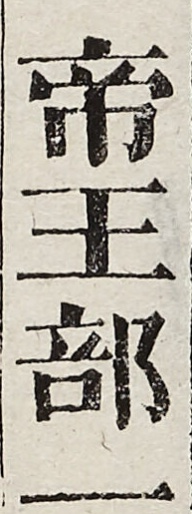帝王部一
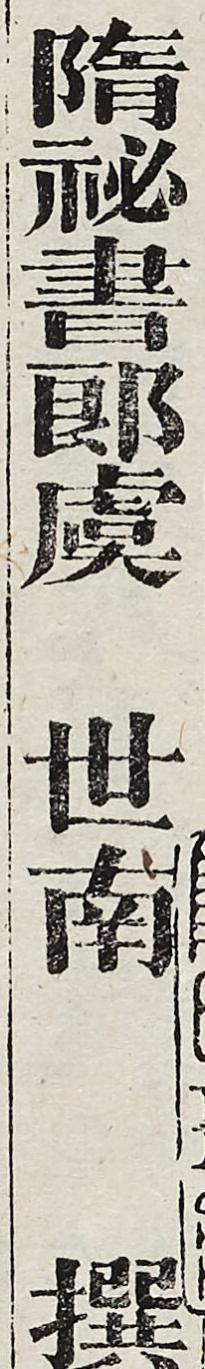隋秘書郎虞世南撰
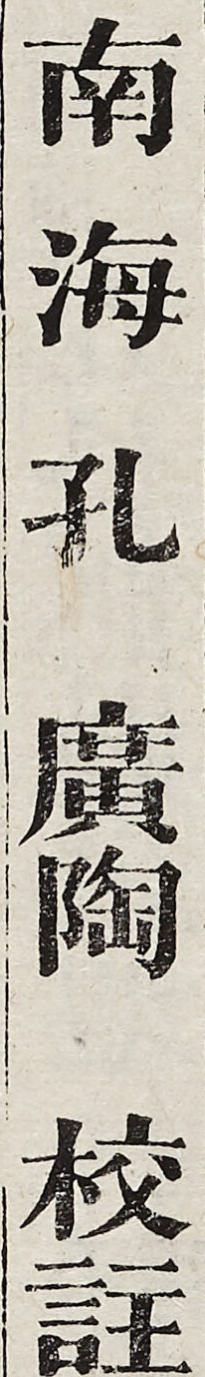南海孔廣陶校註
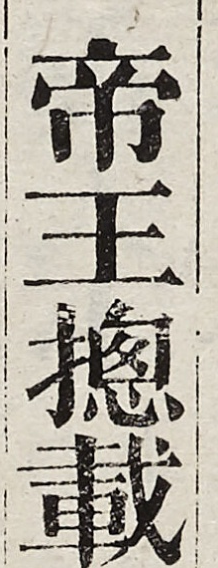帝王摠載一
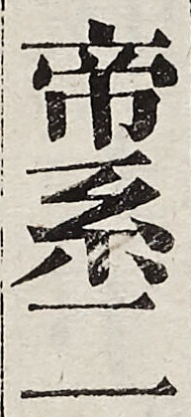帝系二
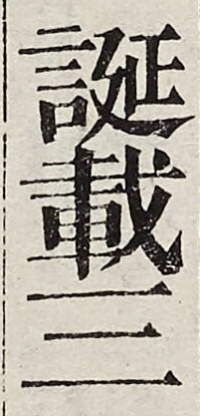誕載三
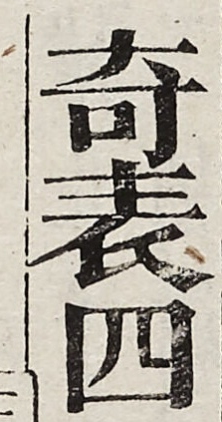奇表四
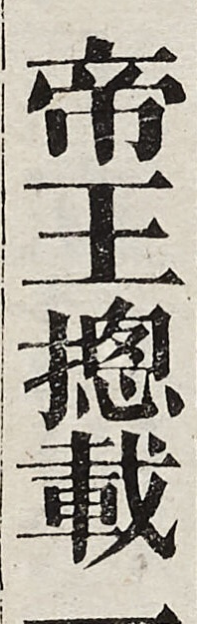帝王摠載一
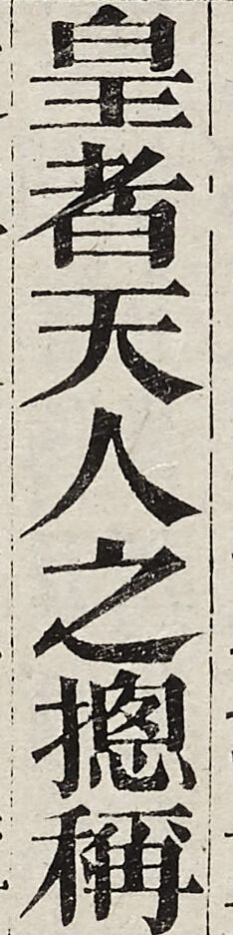皇者天人之摠稱
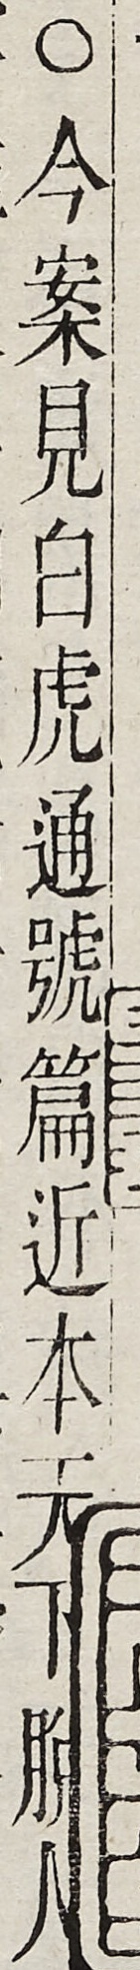○今案見白虎通號篇近本天下脫人
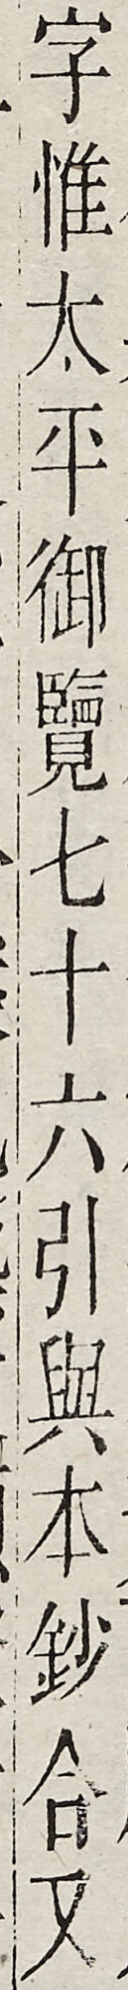字惟太平御覽七十六引與本鈔合又
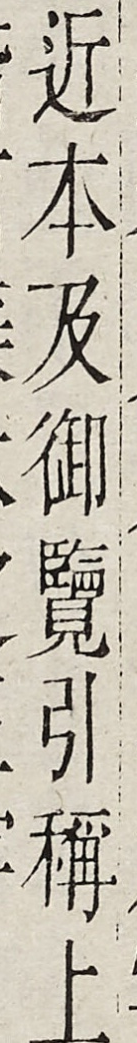近本及御覽引稱上
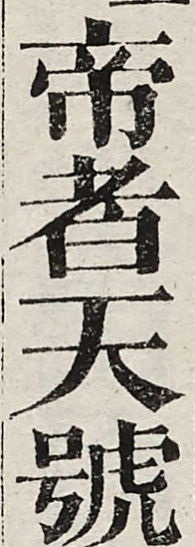帝者天號
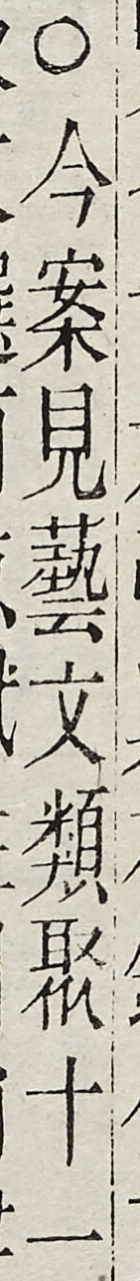○今案見藝文類聚十一
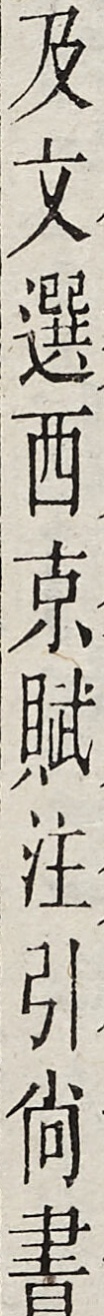及文選西京賦注引尚書
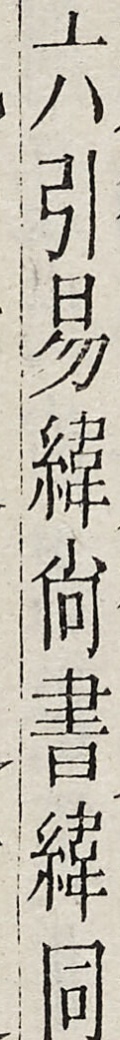六引易緯尚書緯同
